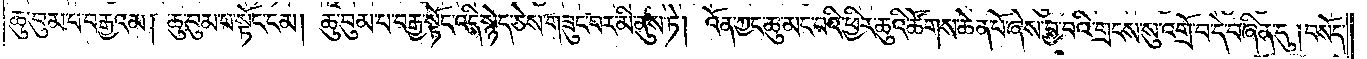ཆུ་བུམ་པ་བརྒྱའམ། ཆུ་བུམ་པ་སྟོང་ངམ། ཆུ་བུམ་པ་བརྒྱ་སྟོང་འདི་སྙེད་ཅེས་གཟུང་བར་མི་ནུས་ཏེ། འོན་ཀྱང་ཆུ་མང་བའི་ཕྱིར་ཆུའི་ཚོགས་ཆེན་པོ་ཞེས་བྱ་བའི་གྲངས་སུ་འགྲོ་བ་དེ་བཞིན་དུ། བསོད་
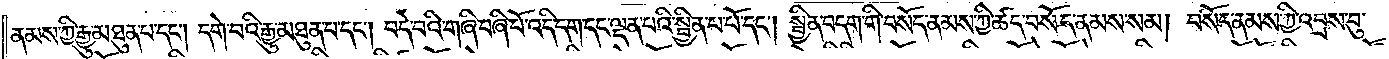ནམས་ཀྱི་རྒྱུ་མཐུན་པ་དང༌། དགེ་བའི་རྒྱུ་མཐུན་པ་དང༌། བདེ་བའི་གཞི་བཞི་པོ་འདི་དག་དང་ལྡན་པའི་སྦྱིན་པ་པོ་དང༌། སྦྱིན་བདག་གི་བསོད་ནམས་ཀྱི་ཚད་བསོད་ནམས་སམ། བསོད་ནམས་ཀྱིས་འབྲས་བུ་
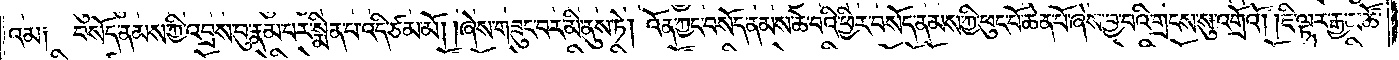འམ༑ བསོད་ནམས་ཀྱི་འབྲས་བུ་རྣམ་པར་སྨིན་པ་འདི་ཙམ་མོ། །ཞེས་གཟུང་བར་མི་ནུས་ཏེ། འོན་ཀྱང་བསོད་ནམས་ཆེ་བའི་ཕྱིར་བསོད་ནམས་ཀྱི་ཕུང་པོ་ཆེན་པོ་ཞེས་བྱ་བའི་གྲངས་སུ་འགྲོའོ། །ཇི་ལྟར་རྒྱ་མཚོ་
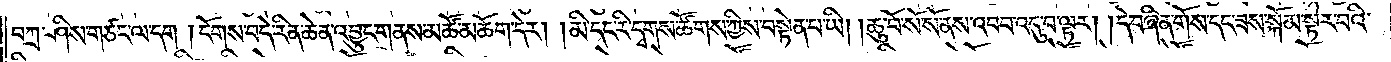བཀྲ་ཤིས་གཙང་ལ་དག །ངོགས་བདེ་རིན་ཆེན་འབྱུང་གནས་མཚོ་མཆོག་དེར། །མི་དང་རི་དྭགས་ཚོགས་ཀྱིས་བསྟེན་པ་ཡི། །ཆུ་བོ་སོ་སོ་ནས་འབབ་འདུ་བ་ལྟར། །དེ་བཞིན་གོས་དང་ཟས་སྐོམ་སྟེར་བའི་
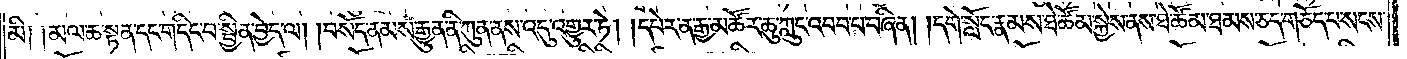མི༑ ༑མལ་ཆ་སྟན་དང་གདིང་བ་སྦྱིན་བྱེད་ལ། །བསོད་ནམས་རྒྱུན་ནི་ཀུན་ནས་འདུ་འགྱུར་ཏེ། །དཔེར་ན་རྒྱ་མཚོར་ཆུ་ཀླུང་འབབ་པ་བཞིན། །དགེ་སློང་རྣམས་ཐེ་ཚོམ་སྐྱེས་ནས་ཐེ་ཚོམ་ཐམས་ཅད་གཅོད་པ་སངས་
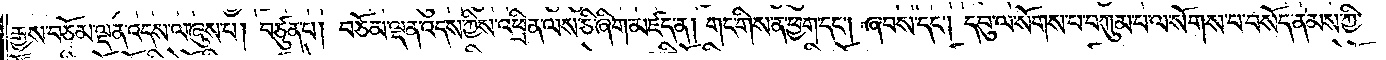རྒྱས་བཅོམ་ལྡན་འདས་ལ་ཞུས་པ། བཙུན་པ། བཅོམ་ལྡན་འདས་ཀྱིས་འཕྲིན་ལས་ཅི་ཞིག་མཛད་ན། གང་གིས་ན་ཕྱག་དང༌། ཞབས་དང༌། དབུ་ལ་སོགས་པ་བཀུམ་པ་ལ་སོགས་པ་བསོད་ནམས་ཀྱི་
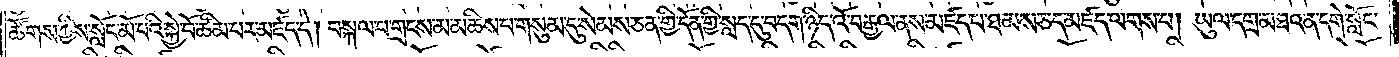ཚོགས་ཀྱིས་སློང་མོ་པའི་སྐྱེ་བོ་ཚིམ་པར་མཛད་དེ། བསྐལ་པ་གྲངས་མ་མཆིས་པ་གསུམ་དུ་སེམས་ཅན་གྱི་དོན་གྱི་སླད་དུ་བདག་ཉིད་འོ་བརྒྱལ་ནས་མཛད་པ་ཐམས་ཅད་མཛད་ལགས་པ། ཡུལ་དགྲ་མཐའ་ན་དགེ་སློང་
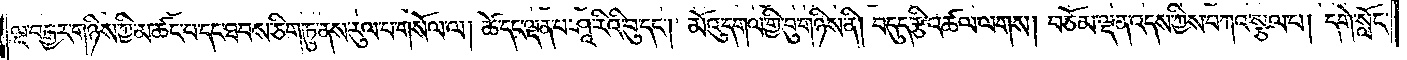ལྔ་བརྒྱར་གཉིས་ཀྱི་མ་ཚང་པ་དང་ཐབས་ཅིག་ཏུ་ནས་རུལ་པ་གསོལ་ལ། ཚེ་དང་ལྡན་པ་ཤཱ་རིའི་བུ་དང༌། མོའུ་དགལ་གྱི་བུ་གཉིས་ནི། བདུད་རྩི་འཚལ་ལགས། བཅོམ་ལྡན་འདས་ཀྱིས་བཀའ་སྩལ་པ། དགེ་སློང་
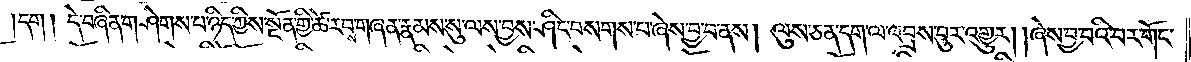།དག། དེ་བཞིན་གཤེགས་པ་ཉིད་ཀྱིས་སྔོན་གྱི་ཚེ་རབས་གཞན་རྣམས་སུ་ལས་བྱས་ཤིང་བསགས་པ་ཞེས་བྱ་བ་ནས། ལུས་ཅན་དག་ལ་འབྲས་བུར་འགྱུར། །ཞེས་བྱ་བའི་བར་གོང་
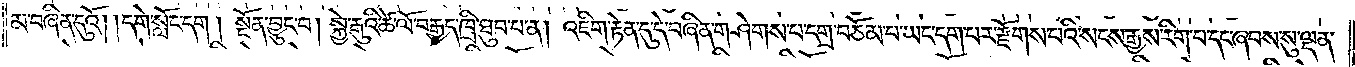མ་བཞིན་དུའོ། །དགེ་སློང་དག །སྔོན་བྱུང་བ། སྐྱེ་རྒུའི་ཚེ་ལོ་བརྒྱད་ཁྲི་ཐུབ་པ་ན། འཇིག་རྟེན་དུ་དེ་བཞིན་གཤེགས་པ་དགྲ་བཅོམ་པ་ཡང་དག་པར་རྫོགས་པའི་སངས་རྒྱས་རིག་པ་དང་ཞབས་སུ་ལྡན་
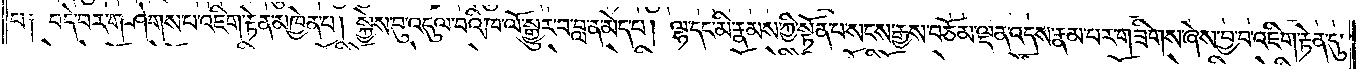པ༑ བདེ་བར་གཤེགས་པ་འཇིག་རྟེན་མཁྱེན་པ། སྐྱེས་བུ་འདུལ་བའི་ཁ་ལོ་སྒྱུར་བ་བླ་ན་མེད་པ། ལྷ་དང་མི་རྣམས་ཀྱི་སྟོན་པ་སངས་རྒྱས་བཅོམ་ལྡན་འདས་རྣམ་པར་གཟིགས་ཞེས་བྱ་བ་འཇིག་རྟེན་དུ་
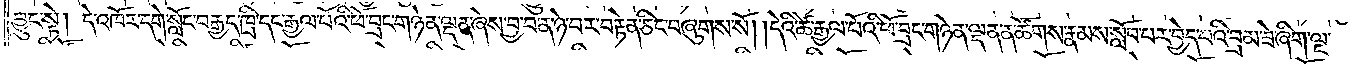བྱུང་སྟེ། དེ་འཁོར་དགེ་སློང་བརྒྱད་ཁྲི་དང་རྒྱལ་པོའི་ཕོ་བྲང་གཉེན་ལྡན་ཞེས་བྱ་བ་ན་ཉེ་བར་བརྟེན་ཅིང་བཞུགས་སོ། །དེའི་ཚེ་རྒྱལ་པོའི་ཕོ་བྲང་གཉེན་ལྡན་ན་ཚོགས་རྣམས་སློབ་པར་བྱེད་པའི་བྲམ་ཟེ་ཞིག་ལྔ་
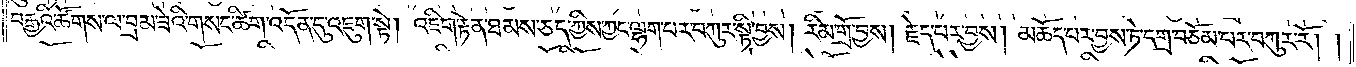བརྒྱའི་ཚོགས་ལ་བྲམ་ཟེའི་གསང་ཚིག་འདོན་དུ་འཇུག་སྟེ། འཇིག་རྟེན་ཐམས་ཅད་ཀྱིས་ཀྱང་ལྷག་པར་བཀུར་སྟི་བྱས། རིམ་གྲོ་བྱས། རྗེད་པར་བྱས། མཆོད་པར་བྱས་ཏེ་དགྲ་བཅོམ་པར་བཀུར་རོ། །
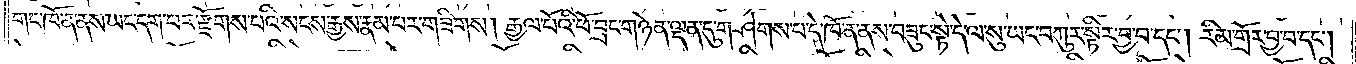གང་ཁོ་ན་ནས་ཡང་དག་པར་རྫོགས་པའི་སངས་རྒྱས་རྣམ་པར་གཟིགས། རྒྱལ་པོའི་ཕོ་བྲང་གཉེན་ལྡན་དུ་གཤེགས་པ་དེ་ཁོ་ན་ནས་བཟུང་སྟེ་དེ་ལ་སུ་ཡང་བཀུར་སྟིར་བྱ་བ་དང༌། རིམ་གྲོར་བྱ་བ་དང༌།
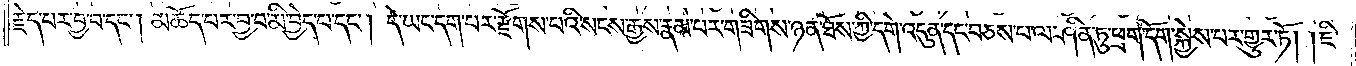རྗེད་པར་བྱ་བ་དང༌། མཆོད་པར་བྱ་བ་མི་བྱེད་པ་དང༌། དེ་ཡང་དག་པར་རྫོགས་པའི་སངས་རྒྱས་རྣམ་པར་གཟིགས་ཉན་ཐོས་ཀྱི་དགེ་འདུན་དང་བཅས་པ་ལ་ཤིན་ཏུ་ཕྲག་དོག་སྐྱེས་པར་གྱུར་ཏོ། །ཇི་
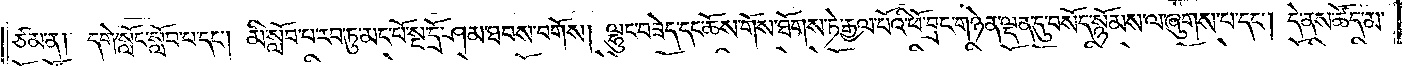ཙམ་ན། དགེ་སློང་སློབ་པ་དང༌། མི་སློབ་པ་རབ་ཏུ་མང་པོ་སྔ་དྲོ་ཤམ་ཐབས་བགོས། ལྷུང་བཟེད་དང་ཆོས་གོས་ཐོགས་ཏེ་རྒྱལ་པོའི་ཕོ་བྲང་གཉེན་ལྡན་དུ་བསོད་སྙོམས་ལ་ཞུགས་པ་དང༌། དེ་ནས་ཚོད་མ་
